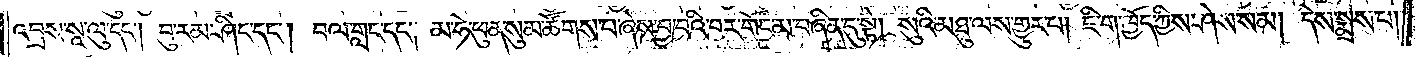འབྲས་སཱ་ལུ་དང༌། བུ་རམ་ཤིང་དང༌། བལ་གླང་དང༌། མ་ཧེ་ཕུན་སུམ་ཚོགས་པ་ཞེས་བྱ་བའི་བར་གོང་མ་བཞིན་དུ་སྟེ། སུའི་མཐུ་ལས་གྱུར་པ། ཇི་ག་ཁྱོད་ཀྱིས་ཤེས་སམ། དེས་སྨྲས་པ།
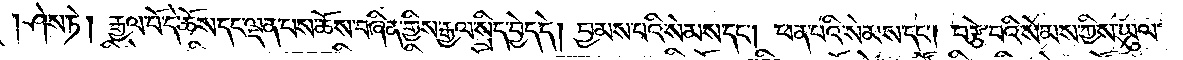ཤེས་ཏེ། རྒྱལ་པོ་དེ་ཆོས་དང་ལྡན་པས་ཆོས་བཞིན་གྱིས་རྒྱལ་སྲིད་བྱེད་དེ། བྱམས་པའི་སེམས་དང༌། ཕན་པའི་སེམས་དང༌། བརྩེ་བའི་སེམས་ཀྱིས་ཡུལ་
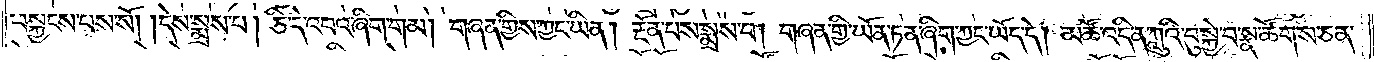བསྐྱངས་པས་སོ། །དེས་སྨྲས་པ། ཅི་དེ་འབའ་ཞིག་གམ། གཞན་གྱིས་ཀྱང་ཡིན། རྔོན་པས་སྨྲས་པ། གཞན་གྱི་ཡོན་ཏན་ཞིག་ཀྱང་ཡོད་དེ། མཚོ་འདི་ན་ཀླུའི་བུ་སྐྱེ་བ་སྣ་ཚོགས་ཅན་
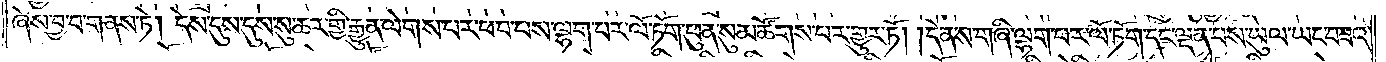ཞེས་བྱ་བ་གནས་ཏེ། དེས་དུས་དུས་སུ་ཆར་གྱི་རྒྱུན་ལེགས་པར་ཕབ་པས་ལྷག་པར་ལོ་ཏོག་ཕུན་སུམ་ཚོགས་པར་གྱུར་ཏོ། །དེ་ན་ས་གཞི་ལྷག་པར་ལོ་ཏོག་དང་ལྡན་པས་ཡུལ་ཡང་བཟའ་
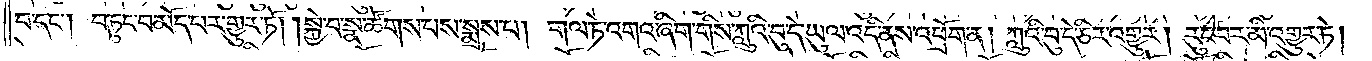བ་དང༌། བཏུང་བ་མོད་པར་གྱུར་ཏོ། །སྐྱེ་བ་སྣ་ཚོགས་པས་སྨྲས་པ། གལ་ཏེ་འགའ་ཞིག་གིས་ཀླུའི་བུ་དེ་ཡུལ་འདི་ནས་འཕྲོག་ན། ཀླུའི་བུ་དེ་ཅིར་འགྱུར། རུང་བར་མི་འགྱུར་ཏེ།
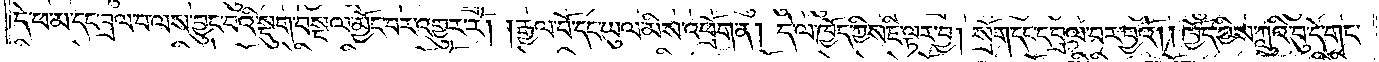དེ་ཕ་མ་དང་བྲལ་བ་ལས་བྱུང་བའི་སྡུག་བསྔལ་མྱོང་བར་འགྱུར་རོ། །རྒྱལ་པོ་དང་ཡུལ་མིས་འཕྲོག་ན། དེ་ལ་ཁྱོད་ཀྱིས་ཇི་ལྟར་བྱ། སྲོག་དང་དབྲལ་བར་བྱའོ། །ཁྱོད་ཀྱིས་ཀླུའི་བུ་དེ་གང་
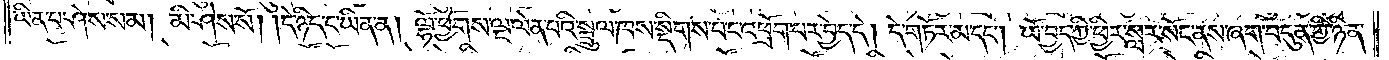ཡིན་པ་ཤེས་སམ། མི་ཤེས་སོ། །དེ་ཉིད་ང་ཡིན་ན། ལྷོ་ཕྱོགས་ལྔ་ལེན་པའི་སྤྲུལ་ཁས་སྡིགས་པ་ང་འཕྲོག་པར་བྱེད་དེ། དེ་གཏོར་མ་དང༌། ཡོ་བྱད་ཀྱི་ཕྱིར་སླར་སོང་ནས་ཞག་བདུན་གྱི་ཉིན་
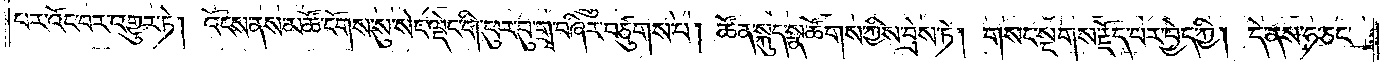པར་འོང་བར་འགྱུར་ཏེ། འོངས་ནས་མཚོ་ངོགས་སུ་སེང་ལྡེང་གི་ཕུར་བུ་གྲྭ་བཞིར་བཙུགས་པ། ཚོན་སྐུད་སྣ་ཚོགས་ཀྱིས་བྲེས་ཏེ། གསང་སྔགས་རྗོད་པར་བྱེད་ཀྱི། དེ་ནས་ཧ་ཅང་
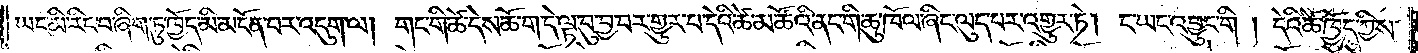ཡང་མི་རིང་པ་ཞིག་ཏུ་ཁྱོད་མི་མངོན་པར་འདུག་ལ། གང་གི་ཚེ་དེས་ཆོ་ག་དེ་ལྟ་བུ་བྱ་བར་གྱུར་པ་དེའི་ཚེ་མཚོའི་ནང་གི་ཆུ་ཁོལ་ཞིང་ལུད་པར་འགྱུར་ཏེ། ང་ཡང་འབྱུང་གི། དེའི་ཚེ་ཁྱོད་ཀྱིས་
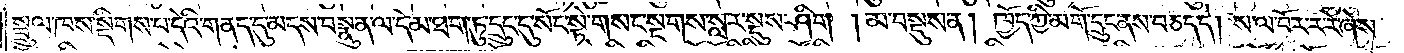སྦྲུལ་ཁས་སྡིགས་པ་དེའི་གནད་དུ་མདས་བསྣུན་ལ་དེ་མ་ཐག་ཏུ་དྲུང་དུ་སོང་སྟེ་གསང་སྔགས་སླར་སྡུས་ཤིག །མ་བསྡུས་ན། ཁྱོད་ཀྱི་མགོ་དྲུང་ནས་བཅད་དེ། ས་ལ་བོར་ར་རེ་ཞེས་
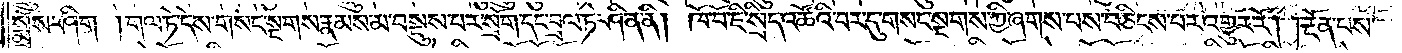སྨྲོས་ཤིག །གལ་ཏེ་དེས་གསང་སྔགས་རྣམས་མ་བསྡུས་པར་སྲོག་དང་བྲལ་ཏེ་ཤི་ན་ནི། ཁོ་བོ་ཇི་སྲིད་འཚོའི་བར་དུ་གསང་སྔགས་ཀྱི་ཞགས་པས་བཅིངས་པར་འགྱུར་རོ། །རྔོན་པས་
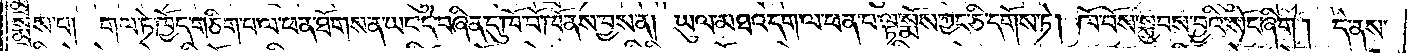སྨྲས་པ། གལ་ཏེ་ཁྱོད་གཅིག་པ་ལ་ཕན་ཐོགས་ན་ཡང་དེ་བཞིན་དུ་ཁོ་བོ་ཁོ་ནས་བྱས་ན། ཡུལ་མཐའ་དག་ལ་ཕན་པ་ལྟ་སྨོས་ཀྱང་ཅི་དགོས་ཏེ། ཁོ་བོས་སྐྱབས་བྱའི་སོང་ཞིག། དེ་ནས་
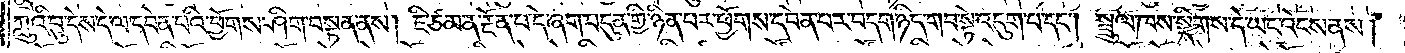ཀླུའི་བུ་དེས་དེ་ལ་དབེན་པའི་ཕྱོགས་ཤིག་བསྟན་ནས། ཇི་ཙམ་ན་རྔོན་པ་དེ་ཞག་བདུན་གྱི་ཉིན་པར་ཕྱོགས་དབེན་པར་བདག་ཉིད་གབ་སྟེ་འདུག་པ་དང༌། སྦྲུལ་ཁས་སྡིགས་དེ་ཡང་འོངས་ནས།
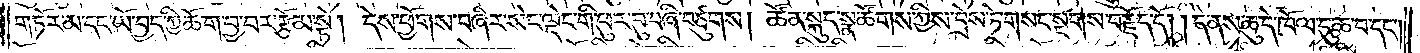གཏོར་མ་དང་ཡོ་བྱད་ཀྱི་ཆོ་ག་བྱ་བར་རྩོམ་སྟེ། དེས་ཕྱོགས་བཞིར་སེང་ལྡེང་གི་ཕུར་བུ་བཞི་བཙུགས། ཚོན་སྐུད་སྣ་ཚོགས་ཀྱིས་བྲེས་ཏེ་གསང་སྔགས་བརྗོད་དོ། །དེ་ནས་ཆུ་དེ་ཁོལ་དུ་ཆ་བ་དང༌།
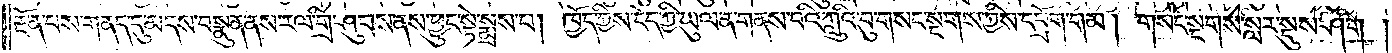རྔོན་པས་གནད་དུ་མདས་བསྣུན་ནས་རལ་གྲི་ཤུབས་ནས་ཕྱུང་སྟེ་སྨྲས་པ། ཁྱོད་ཀྱིས་ངེད་ཀྱི་ཡུལ་ན་གནས་པའི་ཀླུའི་བུ་གསང་སྔགས་ཀྱིས་དབྲོག་གམ། གསང་སྔགས་སླར་སྡུས་ཤིག།
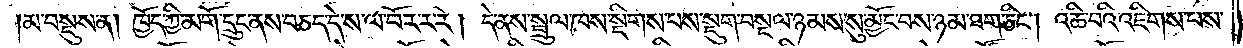མ་བསྡུས་ན། ཁྱོད་ཀྱི་མགོ་དྲུང་ནས་བཅད་དེ་ས་ལ་བོར་ར་རེ། དེ་ནས་སྦྲུལ་ཁས་སྡིགས་པས་སྡུག་བསྔལ་ཉམས་སུ་མྱོང་བས་ཉམ་ཐག་ཅིང༌། འཆི་བའི་འཇིགས་པས་
